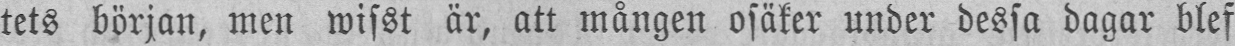tets början, men wisst är, att mången osäker under dessa dagar blef
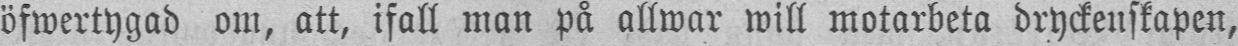öfwertygad om, att, ifall man på allwar will motarbeta dryckenskapen,
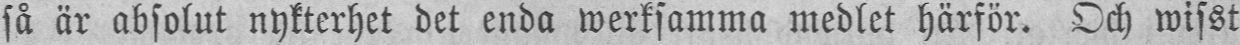så är absolut nykterhet det enda werksamma medlet härför. Och wisst
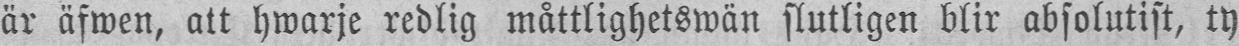är äfwen, att hwarje redlig måttlighetswän slutligen blir absolutist, ty
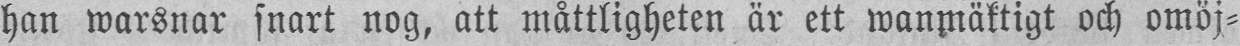han warsnar snart nog, att måttligheten är ett wanmäktigt och omöj-
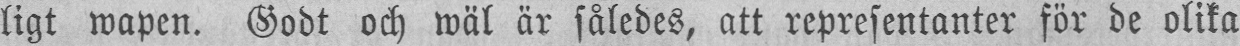ligt wapen. Godt och wäl är således, att representanter för de olika
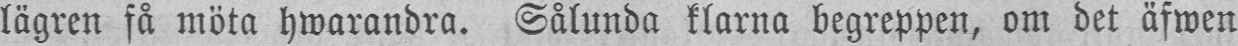lägren få möta hwarandra. Sålunda klarna begreppen, om det äfwen
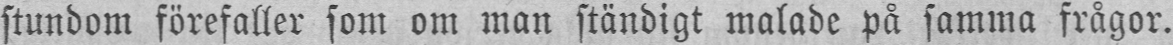stundom förefaller som om man ständigt malade på samma frågor.
